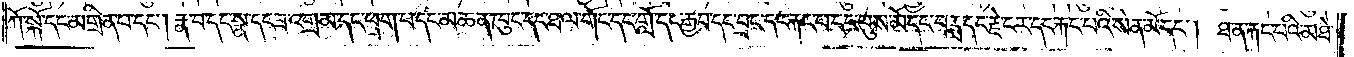ཀོ་སྐོ་དང་མགྲིན་པ་དང༌། རྣ་བ་དང་སྣ་དང་ཟ་འགྲམ་དང་ཕྲག་པ་དང་མཆན་ཁུང་དང་ཐལ་གོང་དང་གློ་དང་རྒྱབ་དང་བྲང་དང་རྐང་པ་དང་པུས་མོ་དང་བརླ་དང་རྗེ་ངར་དང་རྐང་པའི་སེན་མོ་དང༌། ཐ་ན་རྐང་པའི་མཐེ་
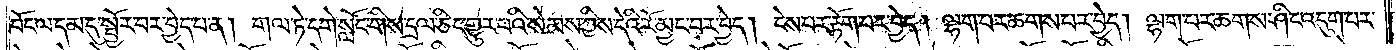བོང་ལ་དམ་དུ་སྦྱོར་བར་བྱེད་པ་ན། གལ་ཏེ་དགེ་སློང་གིས་དྲལ་ཅིང་གྱུར་པའི་སེམས་ཀྱིས་དེའི་རོ་མྱང་བར་བྱེད། ངེས་པར་རྟོག་པར་བྱེད། ལྷག་པར་ཆགས་པར་བྱེད། ལྷག་པར་ཆགས་ཤིང་འདུག་པར་
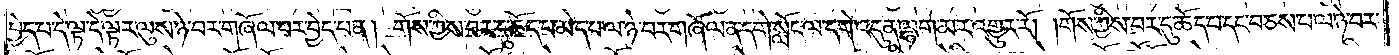བྱེད་པ་དེ་ལྟ་དེ་ལྟར་ལུས་ཉེ་བར་གཞོལ་བར་བྱེད་པ་ན། གོས་ཀྱིས་བར་དུ་ཆོད་པ་མེད་པ་ལ་ཉེ་བར་གཞོལ་ན་དགེ་སློང་ལ་དགེ་འདུན་ལྷག་མར་འགྱུར་རོ། །གོས་ཀྱིས་བར་དུ་ཆོད་པ་དང་བཅས་པ་ལ་ཉེ་བར་
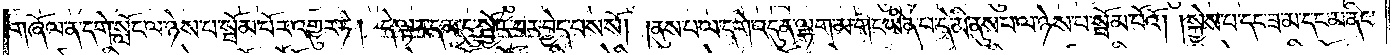གཞོལ་ན་དགེ་སློང་ལ་ཉེས་པ་སྦོམ་པོར་འགྱུར་ཏེ། དེ་ལྟར་དམ་དུ་སྦྱོར་བར་བྱེད་པས་སོ། །ནུས་པ་ལ་དགེ་འདུན་ལྷག་མ་གང་ཡིན་པ་དེ་མི་ནུས་པ་ལ་ཉེས་པ་སྦོམ་པོའོ། །སྐྱེས་པ་དང་ཟ་མ་དང་མ་ནིང་
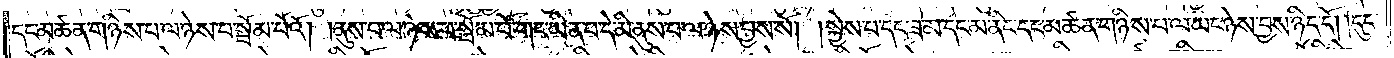དང་མཚན་གཉིས་པ་ལ་ཉེས་པ་སྦོམ་པོའོ། །ནུས་པ་ལ་ཉེས་པ་སྦོམ་པོ་གང་ཡིན་པ་དེ་མི་ནུས་པ་ལ་ཉེས་བྱས་སོ། །སྐྱེས་པ་དང་ཟ་མ་དང་མ་ནིང་དང་མཚན་གཉིས་པ་ལ་ཡང་ཉེས་བྱས་ཉིད་དོ། །དུད་
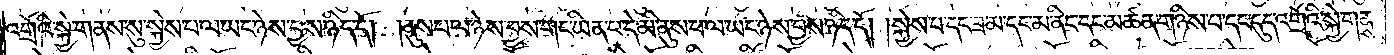འགྲོའི་སྐྱེ་གནས་སུ་སྐྱེས་པ་ལ་ཡང་ཉེས་བྱས་ཉིད་དོ། །ནུས་པ་ལ་ཉེས་བྱས་གང་ཡིན་པ་དེ་མི་ནུས་པ་ལ་ཡང་ཉེས་བྱས་ཉིད་དོ། །སྐྱེས་པ་དང་ཟ་མ་དང་མ་ནིང་དང་མཚན་གཉིས་པ་དང་དུད་འགྲོའི་སྐྱེ་གནས་
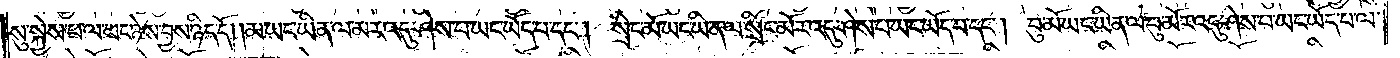སུ་སྐྱེས་པ་ལ་ཡང་ཉེས་བྱས་ཉིད་དོ། །མ་ཡང་ཡིན་ལ་མར་འདུ་ཤེས་པ་ཡང་ཡོད་པ་དང༌། སྲིང་མོ་ཡང་ཡིན་ལ་སྲིང་མོར་འདུ་ཤེས་པ་ཡང་ཡོད་པ་དང༌། བུ་མོ་ཡང་ཡིན་ལ་བུ་མོར་འདུ་ཤེས་པ་ཡང་ཡོད་པ་ལ་
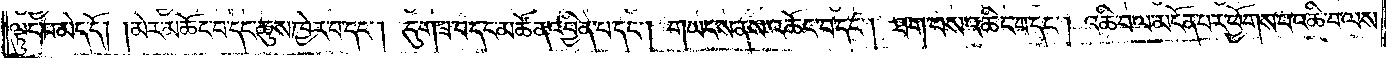ལྟུང་བ་མེད་དོ། །མེར་མཆོང་བ་དང་ཆུས་ཁྱེར་བ་དང༌། དུག་ཟ་བ་དང་མཚོན་འབྱིན་པ་དང༌། གཡང་ས་ནས་འཆོང་བ་དང༌། ཐག་པས་འཆིང་བ་དང༌། འཆི་བ་ལ་མངོན་པར་ཕྱོགས་པ་འཆི་བ་ལས་
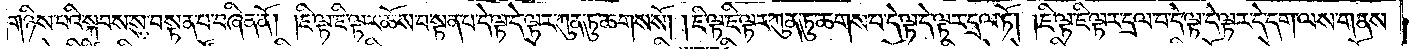གཉིས་པའི་སྐབས་སུ་བསྟན་པ་བཞིན་ནོ། །ཇི་ལྟ་ཇི་ལྟར་ཆོས་བསྟན་པ་དེ་ལྟ་དེ་ལྟར་ཀུན་ཏུ་ཆགས་སོ། །ཇི་ལྟ་ཇི་ལྟར་ཀུན་ཏུ་ཆགས་པ་དེ་ལྟ་དེ་ལྟར་དྲལ་ཏོ། །ཇི་ལྟ་ཇི་ལྟར་དྲལ་བ་དེ་ལྟ་དེ་ལྟར་དེ་དག་ལས་གནས་
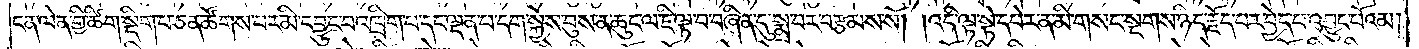ངན་ལེན་གྱི་ཚིག་སྡིག་པ་ཅན་ཚོགས་པར་མི་དབྱུང་བ་འཁྲིག་པ་དང་ལྡན་པ་དག་སྐྱེས་བུས་ན་ཆུང་ལ་ཇི་ལྟ་བ་བཞིན་དུ་སྨྲ་བར་བརྩམས་སོ། །འདི་ལྟ་སྟེ་དཔེར་ན་མི་གསང་སྔགས་ཉིད་རྗོད་པར་བྱེད་པ་འབྱུང་པོའམ།
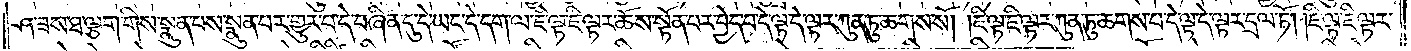ཤ་ཟས་ཐ་ལྕག་གིས་སྣུན་པས་སྣུན་པར་གྱུར་པ་དེ་བཞིན་དུ་དེ་ཡང་དེ་དག་ལ་ཇི་ལྟ་ཇི་ལྟར་ཆོས་སྟོན་པར་བྱེད་པ་དེ་ལྟ་དེ་ལྟར་ཀུན་ཏུ་ཆགས་སོ། །ཇི་ལྟ་ཇི་ལྟར་ཀུན་ཏུ་ཆགས་པ་དེ་ལྟ་དེ་ལྟར་དྲལ་ཏོ། །ཇི་ལྟ་ཇི་ལྟར་
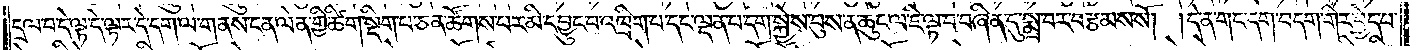དྲལ་བ་དེ་ལྟ་དེ་ལྟར་དེ་དག་ལ་གནས་ངན་ལེན་གྱི་ཚིག་སྡིག་པ་ཅན་ཚོགས་པར་མི་དབྱུང་བ་འཁྲིག་པ་དང་ལྡན་པ་དག་སྐྱེས་བུས་ན་ཆུང་ལ་ཇི་ལྟ་བ་བཞིན་དུ་སྨྲ་བར་བརྩམས་སོ། །དེ་ན་གང་དག་བདག་གིར་བྱེད་པ་
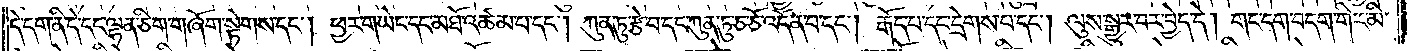དེ་དག་ནི་དེ་དང་ལྷན་ཅིག་གཞོག་སྟེགས་དང༌། ཕྱར་གཡེང་དང་མཐོ་འཚམ་པ་དང༌། ཀུན་ཏུ་རྩེ་བ་དང་ཀུན་ཏུ་ཅ་ཅོ་འདོན་པ་དང༌། རྒོད་པ་དང་དྲེགས་པ་དང༌། ལུས་སྒྱུར་བར་བྱེད་དེ། གང་དག་བདག་གིར་མི་
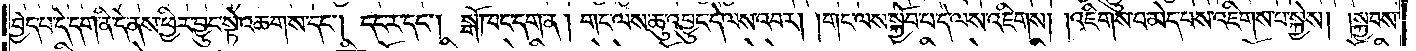བྱེད་པ་དེ་དག་ནི་དེ་ནས་ཕྱིར་བྱུང་སྟེ་འཆག་ས་དང༌། དངར་དང༌། སྒོ་ཁང་དག་ན། གང་ལས་ཆུ་འབྱུང་དེ་ལས་འབར། །གང་ལས་སྐྱོབ་པ་དེ་ལས་འཇིགས། །འཇིགས་པ་མེད་པས་འཇིགས་པ་སྐྱེས། སྐྱབས་
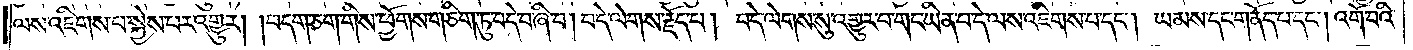ལས་འཇིགས་པ་སྐྱེས་པར་འགྱུར། །བདག་ཅག་གིས་ཕྱོགས་གཅིག་ཏུ་བདེ་བ་ཞི་བ། བདེ་ལེགས་རྗོད་པ། བདེ་ལེགས་སུ་འགྱུར་བ་གང་ཡིན་པ་དེ་ལས་འཇིགས་པ་དང༌། ཡམས་དང་གནོད་པ་དང༌། འགོ་བའི་
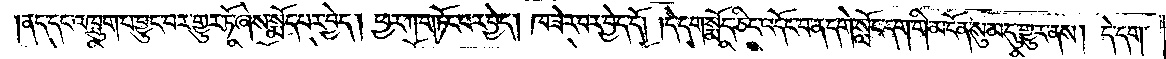།ནད་དང་འཁྲུག་པ་བྱུང་བར་གྱུར་ཏོ་ཞེས་སྨོད་པར་བྱེད། ཕྱར་ཀ་གཏོང་བར་བྱེད། ཁ་ཟེར་བར་བྱེད་དོ། །དེ་དག་སྨོད་ཅིང་འདོང་བ་ན་དགེ་སློང་དག་གི་མངོན་སུམ་དུ་གྱུར་ནས། དེ་དག་
